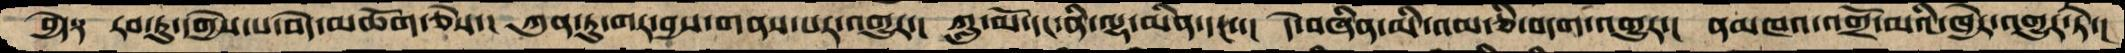བྱེད༑   རབ་ཏུ་དགྱེས་པ་བདེ་མཆོག་ཅེས་།  ཀུན་ཏུ་གར་བྱས་གནས་པར་འགྱུར་།  ཀླུ་མོ་དང་ནི་ལྷ་མིན་དང་་།  དེ་བཞིན་མི་འམ་ཅི་བདག་འགྱུར་།  ནམཁའ་འགྲོ་མའི་ཁྱེར་འགྱུར་ཏེ་།
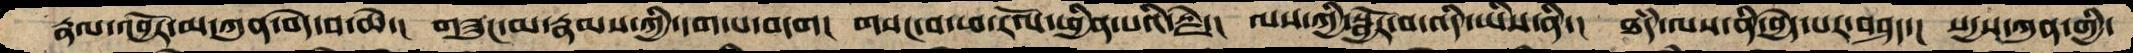རྣལ་འབྱོར་མ་ཀུན་བདེ་བ་ཆེ་།  གཟུང་མ་རྣམས་ཀྱི་དག་པ་བདག་།  གསང་བ་ཕ་རོལ་ཕྱིན་པའི་རྗེ་།  ལས་ཀྱི་སྦྱོར་བ་འདི་ཡིས་ནི་།  ཐཾད་ལས་ནི་བྱེད་པར་བཤད་།  སདྱས་ཀུན་གྱི་
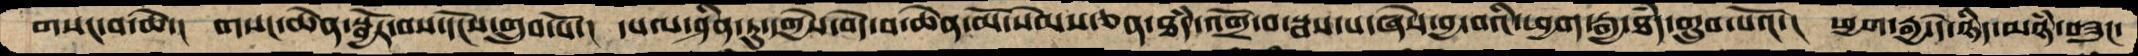གསང་བ་ཆེ་།  གསང་ཆེན་སྦྱོར་བས་དངོས་གྲུབ་པོ་།  དཔལ་ཤིན་ཏུ་དགྱེས་བདེ་བ་ཆེན་མོ་སེམས་ཅན་ཐཾད་འགྲོ་བ་སྦས་པ་ཞེས་བྱ་བའི་ཕྱག་རྒྱ་ཐཾད་གྲུབ་པའོ་།  ཕྱག་རྒྱ་དེ་ཉིད་མཉཾ་བཟུང་
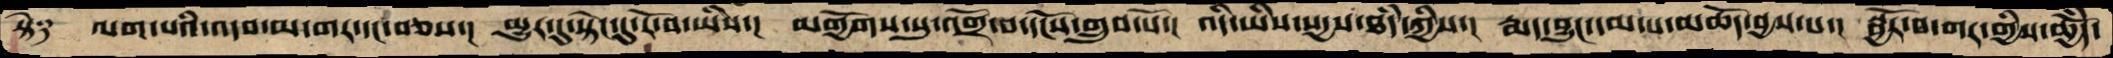སྟེ༑   ལག་པའི་འདབ་མ་གར་དང་བཅས་།  མྱུར་དུ་སྟེང་དུ་རོ་བ་ཡིས་།  མགྱོགས་སུ་འགྲོ་བ་དངོས་གྲུབ་པོ་།  འདི་ཡིས་སདྱས་ཐཾད་ཀྱིས་།  རྨད་བྱུང་དམ་པ་མཆོད་བྱས་པ་།  སྦྱོར་བ་གར་གྱིས་ཆྱོིད་
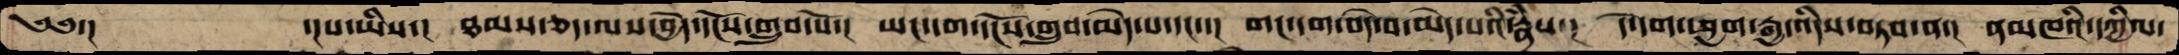༄༅་།        ་།པ་ཡིས་།  ཐམས་ཅད་ལས་བྱེད་དངོས་གྲུབ་པོ་།  ཡང་དག་དངོས་གྲུབ་མེད་པ་དང་་།  གང་དག་བདེ་བ་མེད་པའི་རྣཾས་།  དེ་དག་ཕྱག་རྒྱ་འདིས་བཏབ་ན་།  ནམཁའི་དཀྱིལ་
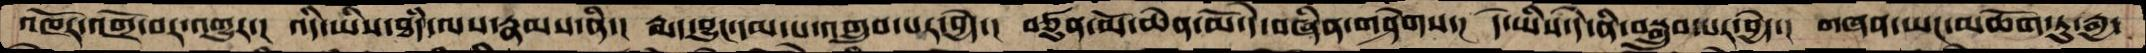འཁོར་འགྲོ་བར་འགྱུར་།  འདི་ཡིས་ཐཾད་ལས་རྣམས་ནི་།  རྨད་བྱུང་དམ་པ་འགྲུབ་པར་བྱེད་།  བཙུན་མོ་ཆེན་མོ་དེ་བཞིན་གཤེགས་། དེ་ཡིས་དེ་ནི་བསྒྲུབ་པར་བྱེད་།  གཞན་ཡང་མཆོག་ཏུ་རྒྱ་
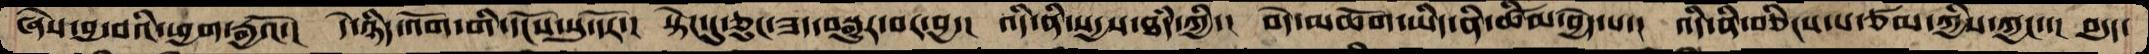ཞེས་བྱ་བའི་ཕྱག་རྒྱའོ་།  དེ་ཉིད་འོག་གི་དངོས་སུ་དོར་།  སྟེང་དུ་ཅུང་ཟད་བསྒྱུར་བར་བྱ་།  འདི་ནི་སདྱས་ཐཾད་ཀྱི་།  བདེ་མཆོག་ཡིད་ནི་ཚིམ་བྱེད་པ་།  འདི་ནི་བཅིངས་པ་ཙམ་ཀྱིས་ཀྱང་་།  བདུད་
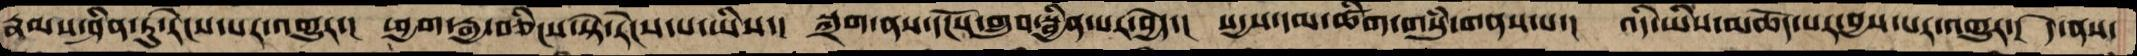རྣམས་ཤིན་ཏུ་རིངས་པར་འགྱུར་།  ཕྱག་རྒྱ་བཅིངས་སྟེ་རིངས་པ་ཡིས་།  སྐྲག་ནས་དངོས་གྲུབ་སྦྱིན་པར་བྱེད་།  སདྱས་དམ་ཚིག་གསུཾ་གནས་པ་།  འདི་ཡིས་མཆོད་པར་བྱས་པར་འགྱུར་།  དེ་ནས་
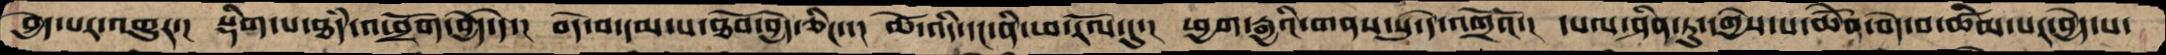བྱེད་པར་འགྱུར་།  སྡིག་པ་ཐཾད་འཕྲོག་བྱེད་དེ་།  བདེ་བ་དམ་པ་ཐོབ་བྱེད་ཅིང་་།  ཚེ་འདི་དང་ནི་ཕ་རོལ་དུ་།  ཕྱག་རྒྱའི་གནས་སུ་དེ་འགྲོའོ་།  དཔལ་ཤིན་ཏུ་དགྱེས་པ་ཆེནོ་བདེ་བ་ཚིམ་པར་བྱེད་པ་
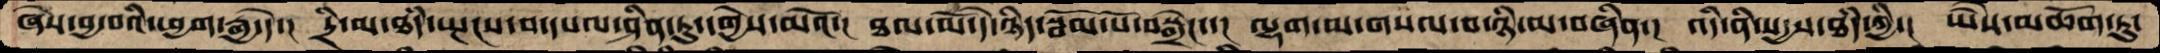ཞེས་བྱ་བའི་ཕྱག་རྒྱ་དེ་།  དྲི་མ་ཐཾད་སྤངས་བ་དཔལ་ཤིན་ཏུ་དགྱེས་མའོ་།  ཐལ་མོ་དེ་ཉིད་སྦོམ་པོ་བསྒྲེང་་།  ལྷག་མ་གསལ་བ་ཉི་མ་བཞིན་།  འདི་ནི་སདྱས་ཐཾད་ཀྱི་།  ཡཻས་མཆོག་ཏུ་
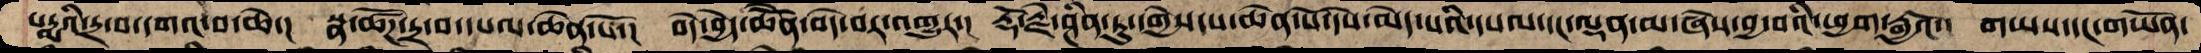པདྨའི་དྲ་བ་དགའ་བ་ཆེ་།  སྣ་ཚོཌ་དྲ་བ་དཔལ་ཆེན་པོ་།  བདེ་བྱེད་ཆེནོ་བདེ་བར་འགྱུར་།  རྡོ་རྗེ་ཤིན་ཏུ་དགྱེས་པ་ཆེན་པོ་དཔེ་མེད་པའི་དཔལ་དང་ལྡན་མ་ཞེས་བྱ་བའི་ཕྱག་རྒྱའོ་།  གཡས་དང་གཡོན་
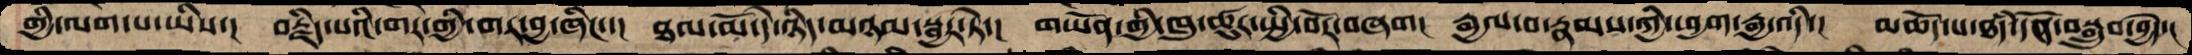གྱི་ལག་པ་ཡིས་།  བརྗིད་པའི་གར་གྱི་གར་བྱ་ཞིང་་།  ཐལ་མོ་དེ་ཉིད་མཉམ་སྦྱར་ཏེ་།  གཡོན་གྱི་ཁུ་ཚུར་སྤྱི་བོར་བཞག།  རྒྱལ་བ་རྣམས་ཀྱི་ཕྱག་རྒྱ་འདི་།  མཆོད་པ་ཐཾད་དོན་བསྒྲུབ་བྱེད་།
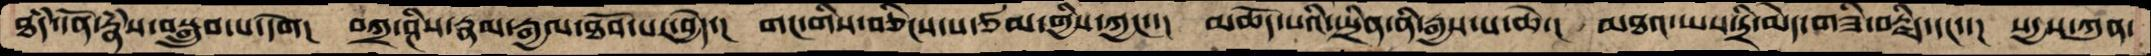ཐཾད་དོན་རྣཾས་བསྒྲུབ་པ་དགེ།  བཀྲ་ཤིས་རྣམ་རྒྱལ་ཐོབ་པར་བྱེད་།  གང་གིས་བཅིངས་པ་ཙམ་གྱིས་ཀྱང་་།  མཆོད་པའི་སྤྲིན་ནི་རྒྱས་པ་ཆེ་།  མཐའ་ཡས་དྲི་མེད་གཟི་བརྗིད་དང་་།  སདྱས་ཀུན་
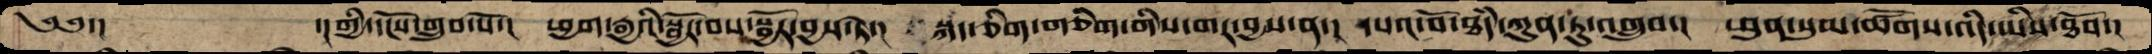༄༅་།            ་།གྱི་དངོས་གྲུབ་པོ་།   ཕྱག་རྒྱའི་སྦྱོར་བས་སྦྱོར་བྱས་ཏེ་།  སྐད་ཅིག་གཅིག་གིས་གར་བྱས་ན་།  དཔའ་བོ་ཐཾད་ཀུན་ཏུ་འགྲུབ་།  ཕུན་སུམ་ཚོགས་འདི་ཡིས་ཐོབ་།
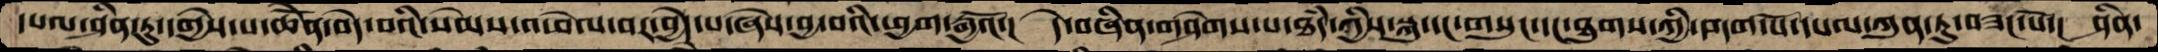དཔལ་ཤིན་ཏུ་དགྱེས་པ་ཆེོན་བདེ་བའི་སེམས་འཕེལ་བར་བྱེད་པ་ཞེས་བྱ་བའི་ཕྱག་རྒྱའོ་།  དེ་བཞིན་གཤེགས་པ་ཐཾད་ཀྱིས་སྐུ་དང་གསུང་དང་ཐུགས་ཀྱི་བདག་པོ་དཔལ་ཀུན་ཏུ་བཟང་པོ་།  ཤིན་
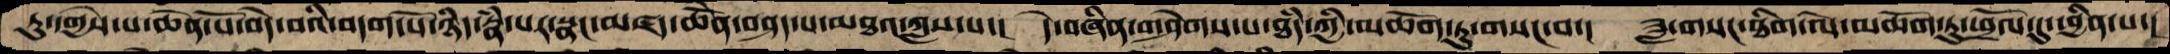ཏུ་དགྱེས་པ་ཆེན་པོ་བདེ་བའི་བདག་པོ་ཉིད་རྣཾ་པར་སྣང་མཛད་ཆོཻན་བཤད་པ་མཐའ་ཀླས་པ་།  དེ་བཞིན་གཤེགས་པ་ཐཾད་ཀྱི་མཆོག་ཏུ་གསང་བ་།  ཟླ་གསང་ཐིག་ལེ་མཆོག་ཏུ་ཕྲོལ་དུ་ཕྱིན་པ་།
